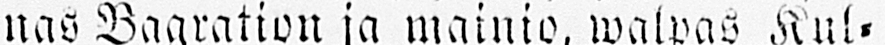neff. Niin otteliwat suomalaisten jäl-
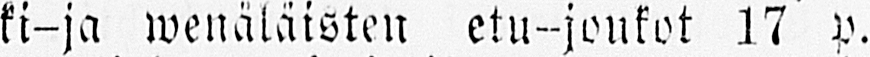ki-ja wenäläisten etu-joukot 17 p.
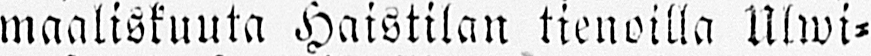maaliskuuta Haistilan tienoilla Ulwi-
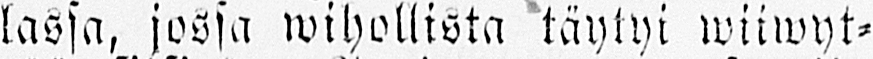lassa, jossa wi hollista täytyi wiiwyt-
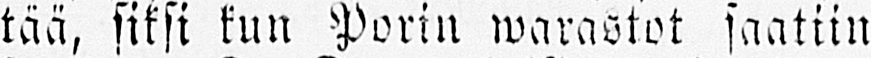tää, siksi kun Porin warastot saatiin
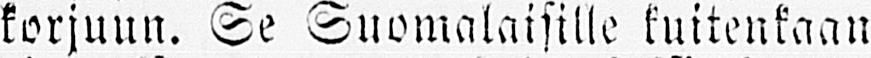korjuun. Se Suomalaisille kuitenkaan
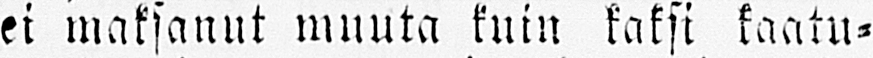ei maksanut muuta kuin kaksi kaatu-
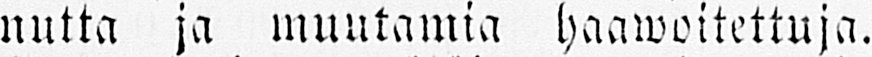nutta ja muutamia haawoitettuja.
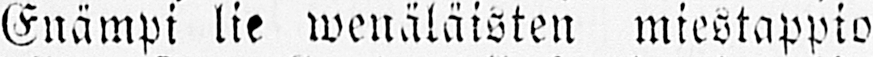Enämpi lie wenäläisten miestappio
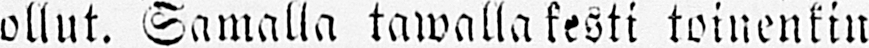ollut. Samalla tawalla kesti toinenkin
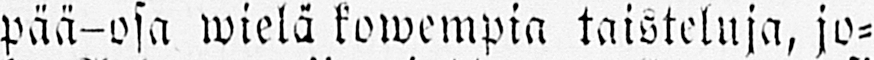pää-osa wielä kowempia taisteluja, jo-
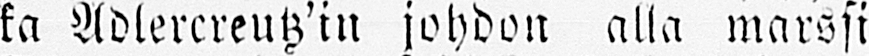ka Adlerereuz'in johdon alla marssi
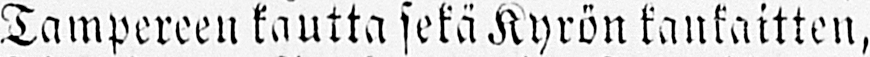Tampereen kautta sekä Kyrön kankaitten,
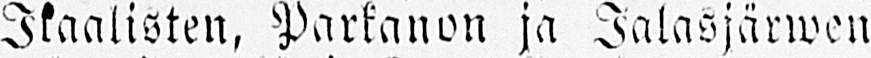Ikaalisten, Parkanon ja Jalasjärwen
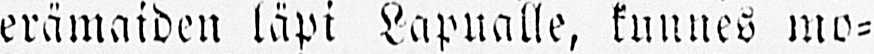erämaiden läpi Lapualle, kunnes mo-
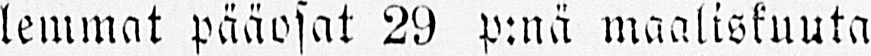lemmat pääosat 29 p:nä maaliskuuta
